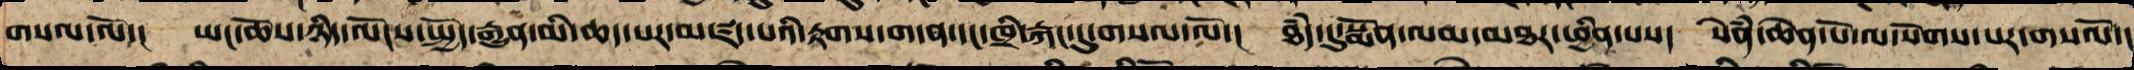གསལ་ལོ་། ཡང་ཆོས་ཉིད་ལོངས་སྤྱོད་རྒྱུན་མི་འཆད་པར་མཛད་པའི་རྟགས་གདན་དང་ཁྲི་རྐང་དུ་གསལ་ལོ་། ཐཾད་དུ་སྨོན་ལམ་མཐར་ཕྱིན་པས། སེཾན་ཆེན་པོ་ལ་སོགས་པར་གསལ་ལོ་།
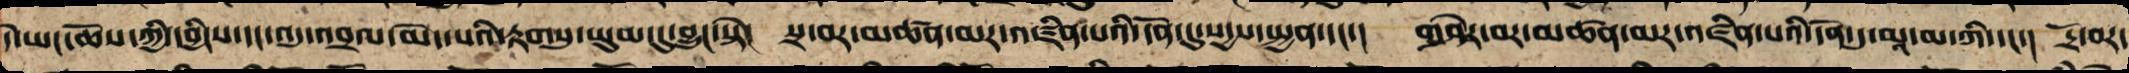དེ་ཡང་ཆོས་ཀྱི་དབྱིངས་དང་འདུ་འབྲལ་མེད་པའི་རྟགསུ་ཡུམ་དུ་བྱུང་སྟེ། སྲ་བར་མཚན་མར་འཛིན་པའི་དོན་དུ་སདྱས་སྤྱན་མ་དང་། གཤེར་བར་མཚན་མར་འཛིན་པའི་དོན་དུ་མཱ་མ་ཀི་དང་། དྲོ་བར་
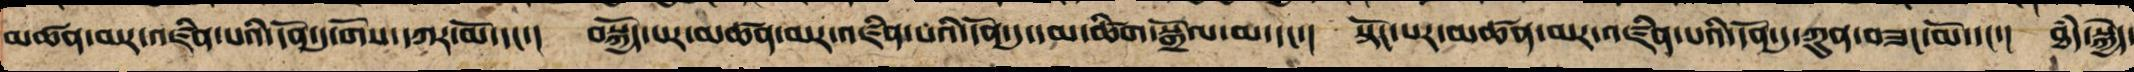མཚན་མར་འཛིན་པའི་དོན་དུ་གོས་དཀར་མོ་དང་། བསྐྱོད་པར་མཚན་མར་འཛིན་པའི་དོན་དུ་དམ་ཚིག་སྒྲོལ་མ་དང་། སྟོང་པར་མཚན་མར་འཛིན་པའི་དོན་དུ་ཀུན་ཏུ་བཟང་མོ་དང་། ཐཾད་སྐྱེད་
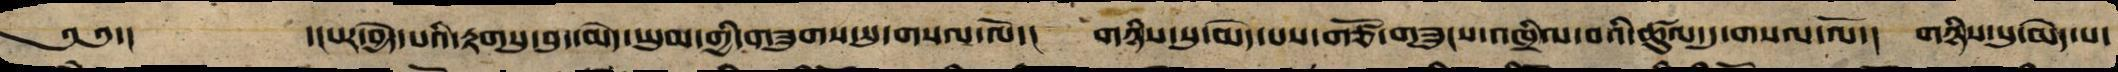༄༅་།   ་།པར་བྱེད་པའི་རྟགསུ་བུད་མེད་ཡུམ་གྱི་གཟུགས་སུ་གསལ་ལོ་། གཉིས་སུ་མེད་པས་གཙོ་གཟུངས་འཁྲིལ་པའི་ཚུལ་དུ་གསལ་ལོ་། གཉིས་སུ་མེད་པ་
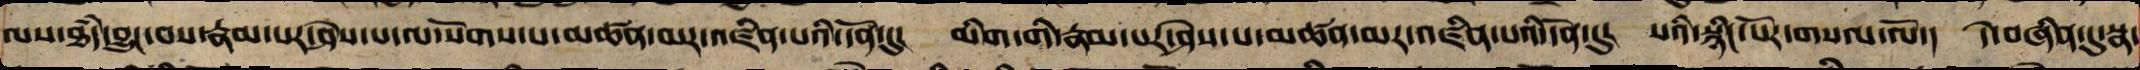ལས་ཐཾད་བྱུང་བས་རྣམ་པར་ཤེས་པ་ལ་སོགས་པ་མཚན་མར་འཛིན་པའི་དོན་དུ། མིག་གི་རྣམ་པར་ཤེས་པ་མཚན་མར་འཛིན་པའི་དོན་དུ། སའི་སྙིང་པོར་གསལ་ལོ་། དེ་བཞིན་དུ་སྣ་
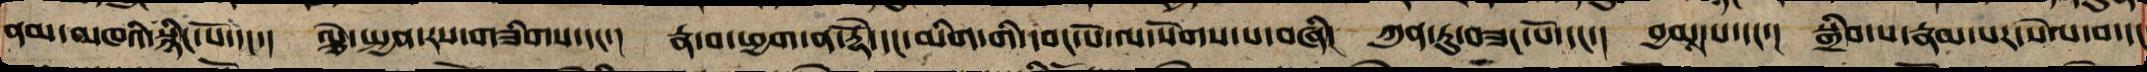ནམ་མཁའི་སྙིང་པོ་དང་། ལྕེ་སྤྱན་རས་གཟིགས་དང་། རྣ་བ་ཕྱག་ན་རྡོེ་དང་མིག་གི་དབང་པོ་ལ་སོགས་པ་བཞི། ཀུན་ཏུ་བཟང་པོ་དང་། བྱམས་པ་དང་། སྒྲིབ་པ་རྣམ་པར་སེལ་བ་དང
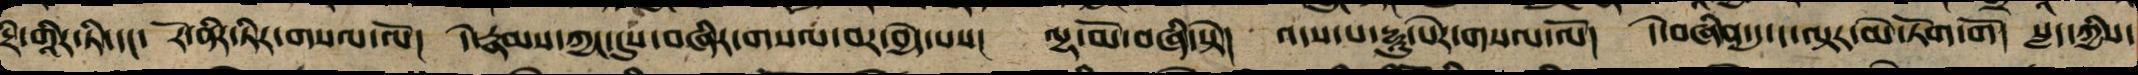དྲི་གཱིར་ཏིར་དང་། རོ་ནིར་ཏིར་གསལ་ལོ། དེ་རྣམས་ཀྱང་དུས་བཞིར་གསལ་བར་བྱེད་པས། ལྷ་མོ་བཞི་སྟེ། འདས་པ་དྷཱུ་པེར་གསལ་ལོ། དེ་བཞིན་དུ་ད་ལྟར་མེ་ཏོག་གོ། སླད་ཀྱིས་
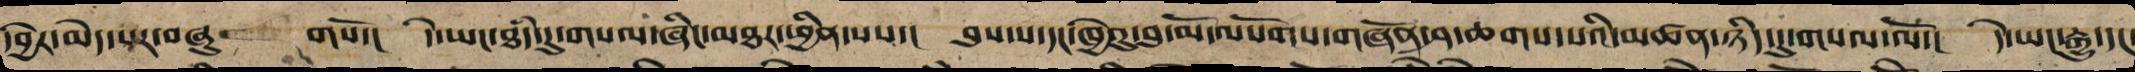དབྱེར་མེད་པར་བཞུགསོ་། དེ་ཡང་ཐཾད་དུ་གསལ་ཞིང་མཐར་ཕྱིན་པས་། བུས་པ་ཁྱེའུ་དང་བུ་མོ་ལ་སོགས་གཞོན་ཤ་ཆགས་པའི་མཚན་ཉིད་དུ་གསལ་ལོ་། དེ་ཡང་རྒྱུ་དང་
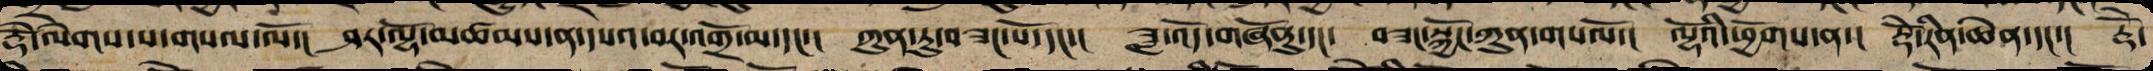རྡོེ་ལེགས་པ་གསལ་ལོ་། ཤར་ལྷོ་མཚམས་ན་དཔའ་བར་འགྲོ་བ་དང་། ཀུན་ཏུ་བཟང་པོ་དང་། ཟླ་འོད་གཞོནུ་དང་། བཟང་སྐྱོང་ཀུན་གསལོ་། ལྷོའི་ཕྱོགས་ན་། རྡོེ་རིན་ཆེན་དང་། རྡོེ་
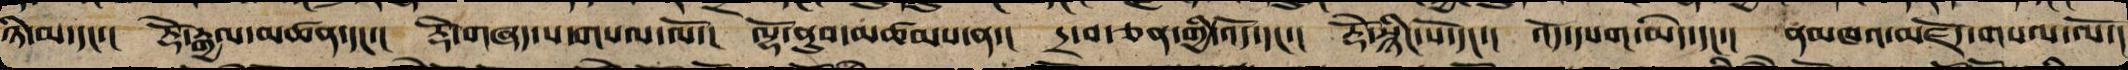ཉི་མ་དང་། རྡོེ་རྒྱལ་མཚན་དང་། རྡོེ་བཞད་པ་གསལ་ལོ།་ ལྷོ་ནུབ་མཚམས་ན་། དྲ་བ་ཅན་གྱི་འོད་དང་། རྡོེ་སྙིང་པོ་དང་། འོད་དཔག་མེད་དང་། ནམ་མཁའ་མཛོད་གསལ་ལོ་།
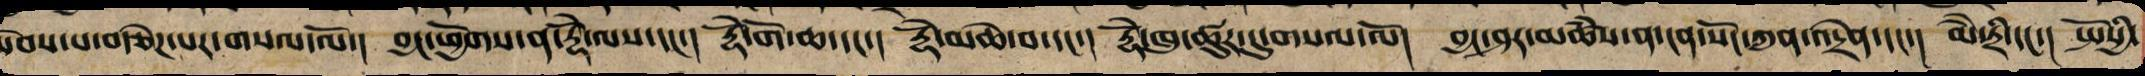སྤོབས་པ་བརྩེཌ་པར་གསལ་ལོ་། བྱང་ཕྱོགས་ན་རྡོེ་ལས་དང་། རྡོེ་གོ་ཆ་དང་། རྡོེ་མཆེ་བ་དང་། རྡོེ་ཁུ་ཚུར་དུ་གསལ་ལོ། བྱང་ཤར་མཚཾས་ན་ངན་སོང་ཀུན་འདྲེན་དང་། མཻ་ཏྲི་དང་། སྤོསྱི་
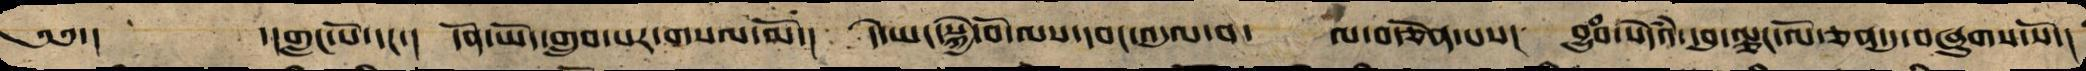༄༅་།  ་།གླང་པོ་དང་། དོན་ཡོད་གྲུབ་པར་གསལ་ལོ་། དེ་ཡང་སྐྱེ་བོ་ལས་དབང་འདུལ་བ་ལ་བརྩོན་པས། བྱུཾབ་སེདཾའ་དབུ་ལྕང་ལོ་ཅན་དུ་བཞུགས་སོ་།
